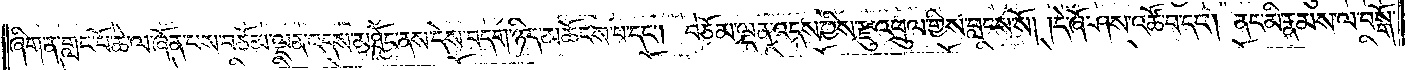ཞིག་ན་གླང་པོ་ཆེ་ལ་ཞོན་པས་བཅོམ་ལྡན་འདས་མཐོང་ནས་དེས་བདག་ཉིད་མཆོངས་པ་དང༌། བཅོམ་ལྡན་འདས་ཀྱིས་རྫུ་འཕྲུལ་གྱིས་བླངས་སོ། །དེ་ཞོ་ཤས་འཚོ་བ་དང༌། ནང་མི་རྣམས་ལ་བསྒོ་
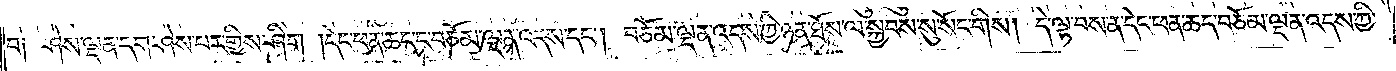བ། ཤེས་ལྡན་དག་ཤེས་པར་གྱིས་ཤིག །དེང་ཕན་ཆད་ང་བཅོམ་ལྡན་འདས་དང༌། བཅོམ་ལྡན་འདས་ཀྱི་ཉན་ཐོས་ལ་སྐྱབས་སུ་སོང་གིས། དེ་ལྟ་བས་ན་དེང་ཕན་ཆད་བཅོམ་ལྡན་འདས་ཀྱི་
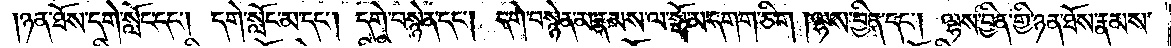།ཉན་ཐོས་དགེ་སློང་དང༌། དགེ་སློང་མ་དང༌། དགེ་བསྙེན་དང༌། དགེ་བསྙེན་མ་རྣམས་ལ་སྒོ་མ་དགག་ཅིག །ལྷས་བྱིན་དང༌། ལྷས་བྱིན་གྱི་ཉན་ཐོས་རྣམས་
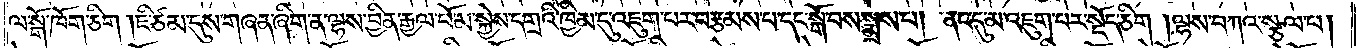ལ་སྒོ་ཁོག་ཅིག །ཇི་ཙམ་དུས་གཞན་ཞིག་ན་ལྷས་བྱིན་རྒྱལ་པོ་མ་སྐྱེས་དགྲའི་ཁྱིམ་དུ་འཇུག་པར་བརྩམས་པ་དང་སྒོ་བས་སྨྲས་པ། ནང་དུ་མ་འཇུག་པར་སྡོད་ཅིག །ལྷས་བཀའ་སྩལ་པ།
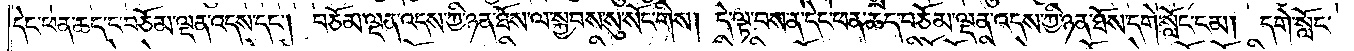དེང་ཕན་ཆད་ང་བཅོམ་ལྡན་འདས་དང༌། བཅོམ་ལྡན་འདས་ཀྱི་ཉན་ཐོས་ལ་སྐྱབས་སུ་སོང་གིས། དེ་ལྟ་བས་ན་དེང་ཕན་ཆད་བཅོམ་ལྡན་འདས་ཀྱི་ཉན་ཐོས་དགེ་སློང་ངམ། དགེ་སློང་
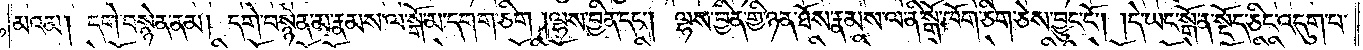མའམ། དགེ་བསྙེན་ནམ། དགེ་བསྙེན་མ་རྣམས་ལ་སྒོ་མ་དགག་ཅིག །ལྷས་བྱིན་དང༌། ལྷས་བྱིན་གྱི་ཉན་ཐོས་རྣམས་ལ་ནི་སྒོ་ཁོག་ཅིག་ཅེས་བྱུང་ངོ༌། །དེ་ཡང་སྒོ་ན་སྡོད་ཅིང་འདུག་པ་
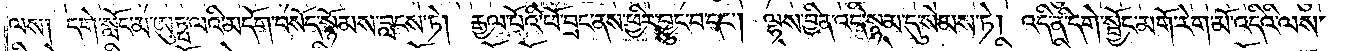ལས། དགེ་སློང་མ་ཨུཏྤ་ལའི་མདོག་བསོད་སྙོམས་བླངས་ཏེ། རྒྱལ་པོའི་ཕོ་བྲང་ནས་ཕྱིར་བྱུང་བ་དང༌། ལྷས་བྱིན་འདི་སྙམ་དུ་སེམས་ཏེ། འདི་ནི་དགེ་སྦྱོང་མགོ་རེག་མོ་འདིའི་ལས་
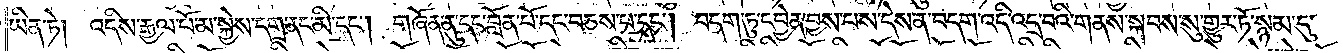ཡིན་ཏེ། འདིས་རྒྱལ་པོ་མ་སྐྱེས་དགྲ་ནང་མི་དང༌། གཞོན་ནུ་དང་བློན་པོ་དང་བཅས་པ་དང༌། བདག་ཏུ་དབྱེན་བྱས་པས་དེ་ན་བདག་འདི་འདྲ་བའི་གནས་སྐབས་སུ་གྱུར་ཏོ་སྙམ་དུ་
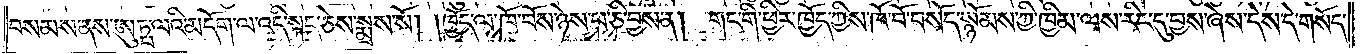བསམས་ནས་ཨུཏྤ་ལའི་མདོག་ལ་འདི་སྐད་ཅེས་སྨྲས་སོ། །ཁྱོད་ལ་ཁོ་བོས་ཉེས་པ་ཅི་བྱས་ན། གང་གི་ཕྱིར་ཁྱོད་ཀྱིས་ཁོ་བོ་བསོད་སྙོམས་ཀྱི་ཁྱིམ་ལས་རིང་དུ་བྱས་ཞེས་དེས་དེ་གསོད་
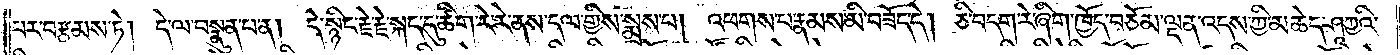པར་བརྩམས་ཏེ། དེ་ལ་བསྣུན་པ་ན། དེ་སྙིང་རྗེ་རྗེ་སྐད་དུ་ཚིག་རེ་རེ་ནས་དལ་གྱིས་སྨྲས་པ། འཕགས་པ་རྣམས་མི་བཟོད་དེ། ཅི་བདག་རེ་ཞིག་ཁྱོད་བཅོམ་ལྡན་འདས་ཀྱི་མཆེད་ཤཱཀྱའི་
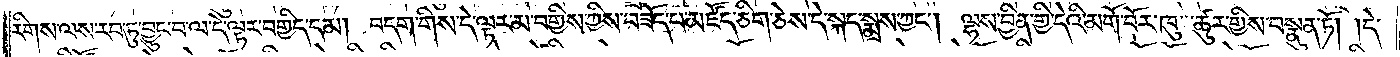རིགས་ལས་རབ་ཏུ་བྱུང་བ་ལ་དེ་ལྟར་བགྱིད་དམ། བདག་གིས་དེ་ལྟར་མ་བགྱིས་ཀྱིས་བཟོད་པ་མཛོད་ཅིག་ཅེས་དེ་སྐད་སྨྲས་ཀྱང༌། ལྷས་བྱིན་གྱི་དེའི་མགོ་བོར་ཁུ་ཚུར་གྱིས་བསྣུན་ཏོ། །དེ་
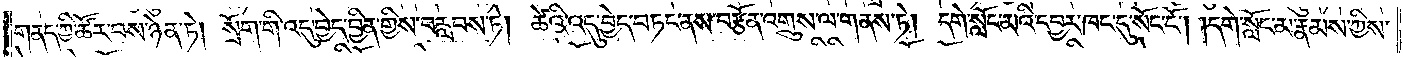གནད་ཀྱི་ཚོར་བས་ཉེན་ཏེ། སྲོག་གི་འདུ་བྱེད་བྱིན་གྱིས་བརླབས་ཏེ། ཚེའི་འདུ་བྱེད་བཏང་ནས་བརྩོན་འགྲུས་ལ་གནས་ཏེ། དགེ་སློང་མའི་དབྱར་ཁང་དུ་སོང་ངོ༌། །དགེ་སློང་མ་རྣམས་ཀྱིས་
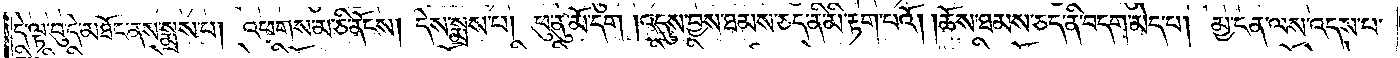དེ་ལྟ་བུ་དེ་མཐོང་ནས་སྨྲས་པ། འཕགས་མ་ཅི་ནོངས། དེས་སྨྲས་པ། ཕུ་ནུ་མོ་དག །འདུས་བྱས་ཐམས་ཅད་ནི་མི་རྟག་པའོ། །ཆོས་ཐམས་ཅད་ནི་བདག་མེད་པ། མྱ་ངན་ལས་འདས་པ་
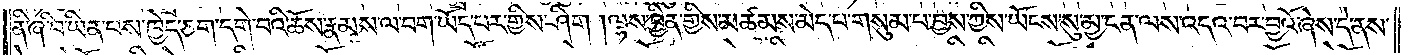ནི་ཞི་བ་ཡིན་པས་ཁྱེད་ཅག་དགེ་བའི་ཆོས་རྣམས་ལ་བག་ཡོད་པར་གྱིས་ཤིག །ལྷས་བྱིན་གྱིས་མཚམས་མེད་པ་གསུམ་པ་བྱས་ཀྱིས་ཡོངས་སུ་མྱ་ངན་ལས་འདའ་བར་བྱའོ་ཞེས་དེ་ནས་
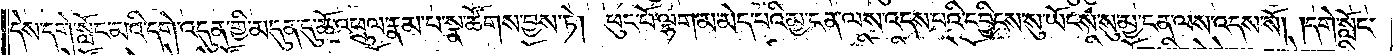དེས་དགེ་སློང་མའི་དགེ་འདུན་གྱི་མདུན་དུ་ཆོ་འཕྲུལ་རྣམ་པ་སྣ་ཚོགས་བྱས་ཏེ། ཕུང་པོ་ལྷག་མ་མེད་པའི་མྱ་ངན་ལས་འདས་པའི་དབྱིངས་སུ་ཡོངས་སུ་མྱ་ངན་ལས་འདས་སོ། །དགེ་སློང་
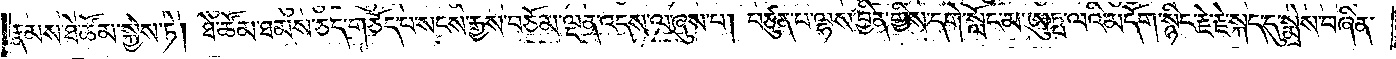རྣམས་ཐེ་ཚོམ་སྐྱེས་ཏེ། ཐེ་ཚོམ་ཐམས་ཅད་གཅོད་པ་སངས་རྒྱས་བཅོམ་ལྡན་འདས་ལ་ཞུས་པ། བཙུན་པ་ལྷས་བྱིན་གྱིས་དགེ་སློང་མ་ཨུཏྤ་ལའི་མདོག་སྙིང་རྗེ་རྗེ་སྐད་དུ་སྨྲེས་བཞིན་
